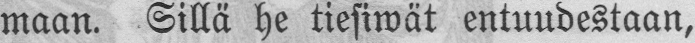maan. Sillä he tiesiwät entuudestaan,
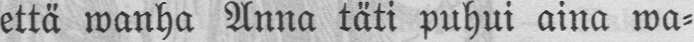että wanha Anna täti puhui aina wa-
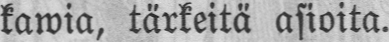kawia, tärkeitä asioita.
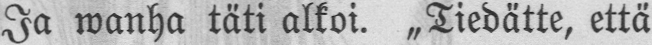Ja wanha täti alkoi. „Tiedätte, että
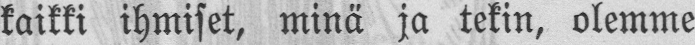kaikki ihmiset, minä ja tekin, olemme
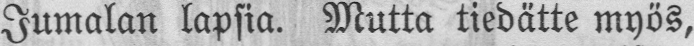Jumalan lapsia. Mutta tiedätte myös,
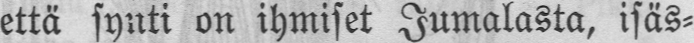että synti on ihmiset Jumalasta, isäs-
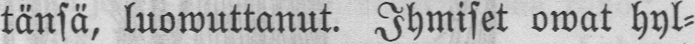tänsä, luowuttanut. Ihmiset owat hyl-
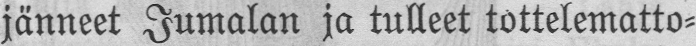jänneet Jumalan ja tulleet tottelematto-
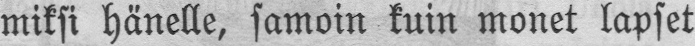miksi hänelle, samoin kuin monet lapset
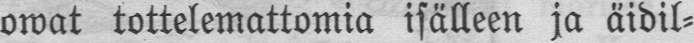owat tottelemattomia isälleen ja äidil-
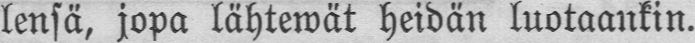lensä, jopa lähtewät heidän luotaankin.
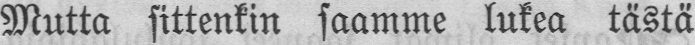Mutta sittenkin saamme lukea tästä
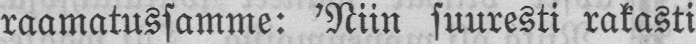raamatussamme: 'Niin suuresti rakasti
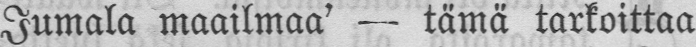Jumala maailmaa' — tämä tarkoittaa
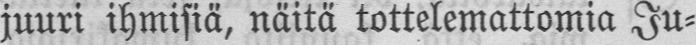juuri ihmisiä, näitä tottelemattomia Ju-
